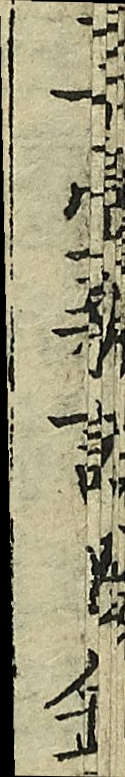玉臺新詠目錄
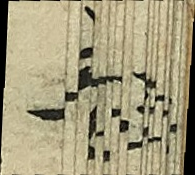二
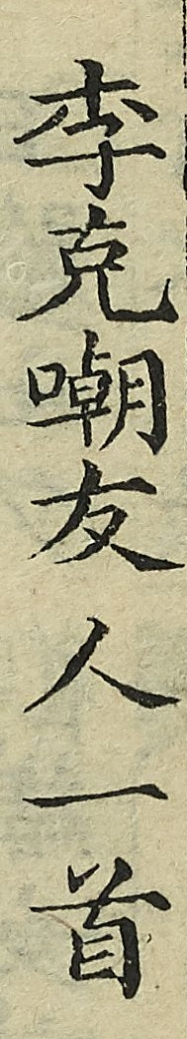李克嘲友人一首
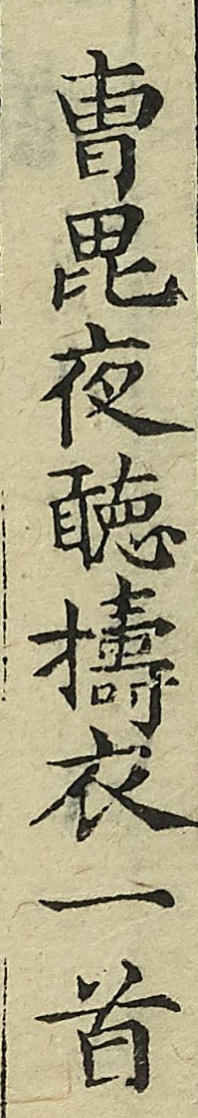曹毘夜聽擣衣一首
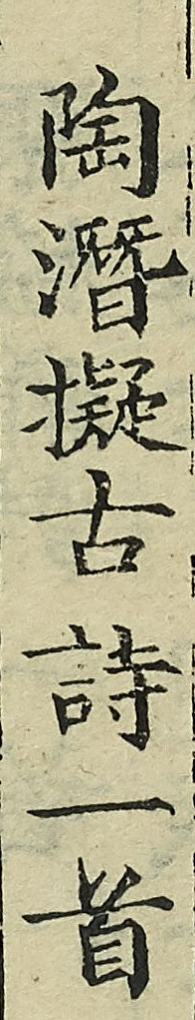陶潛擬古詩一首
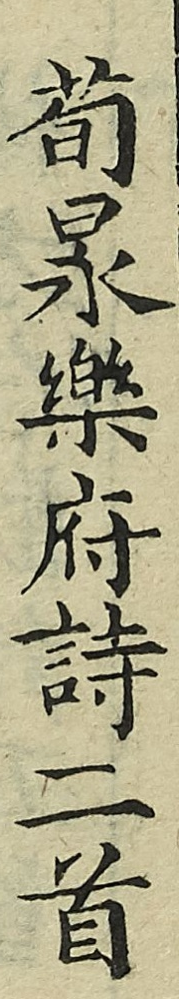荀昶樂府詩二首
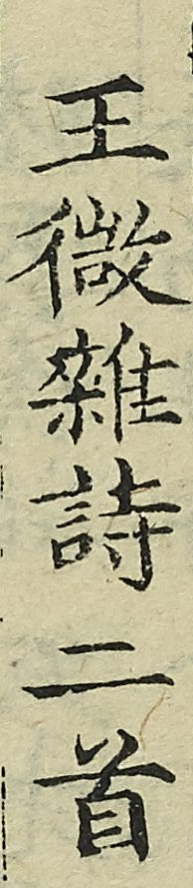王微雜詩二首
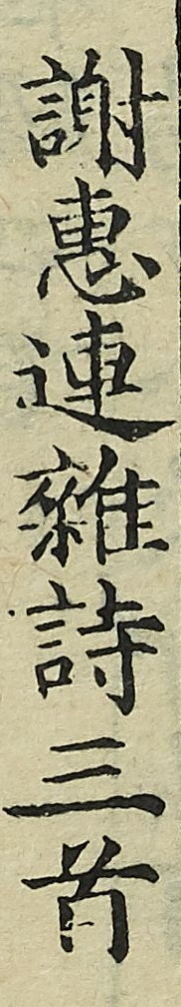謝惠連雜詩三首
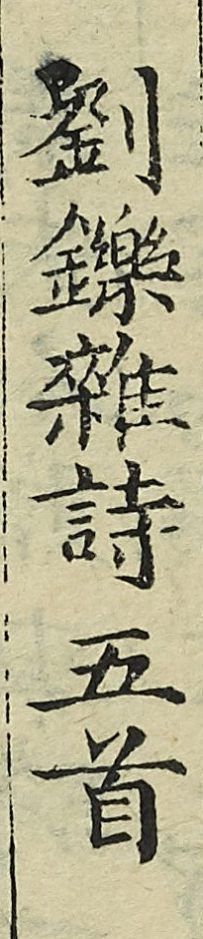劉鑠雜詩五首
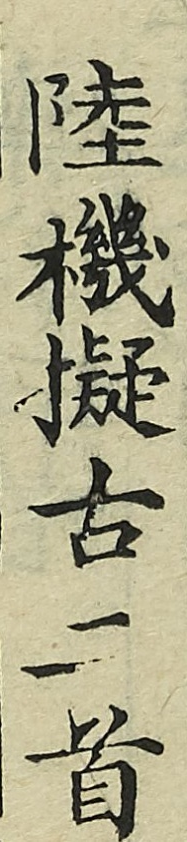陸機擬古二首
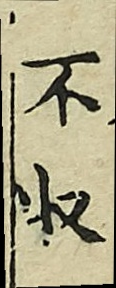不收
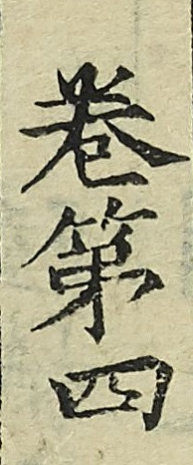卷第四
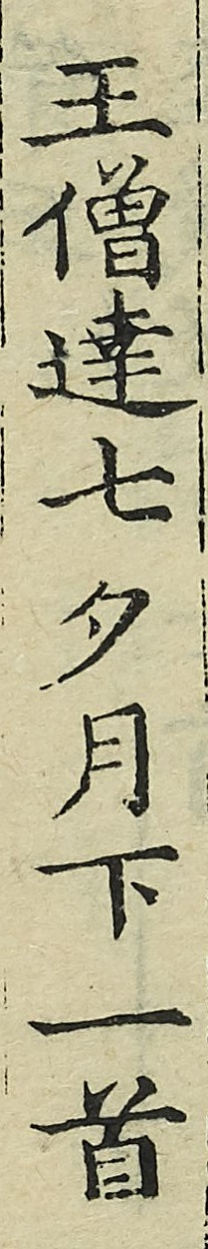王僧達七夕月下一首
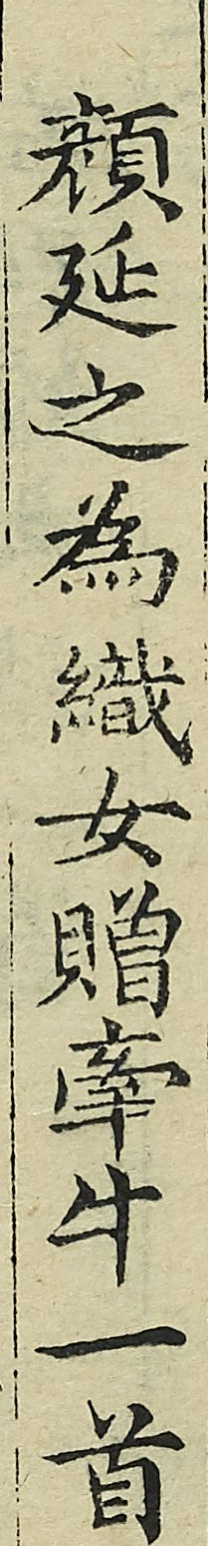顏延之為織女贈牽牛一首
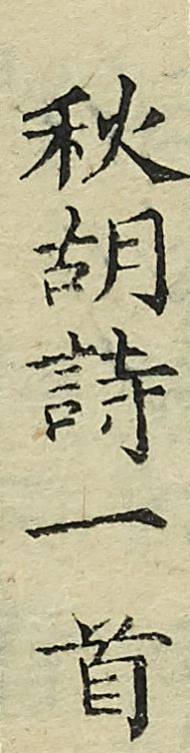秋胡詩一首
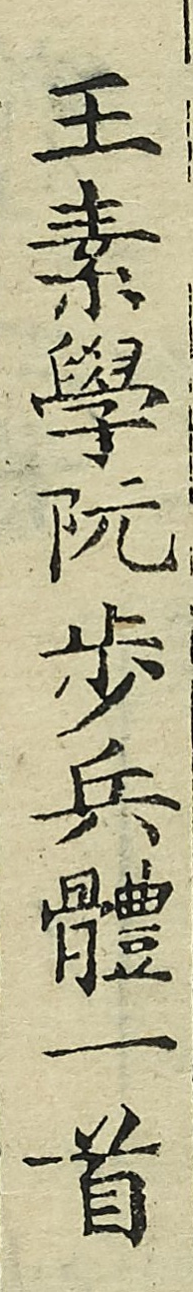王素學阮步兵體一首
